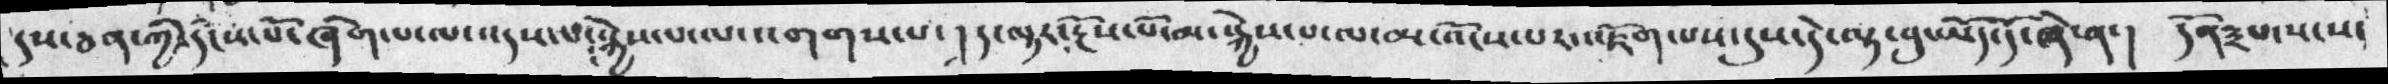དུས་ཅན་ཀྱི་དངོས་པོ་ཞིག་པ་ལས་འདས་པ་སྐྱེས་པ་ལ་འགགས་པ་། ད་ལྟར་རྔོས་པོ་མ་སྐྱེས་པ་ལ་མ་འོངས་པར་འཇོག་པས་དུས་དེ་ལྟ་བུ་ཡོད་དོ་ཞེ་ན་། དོན༣པ་སངས་
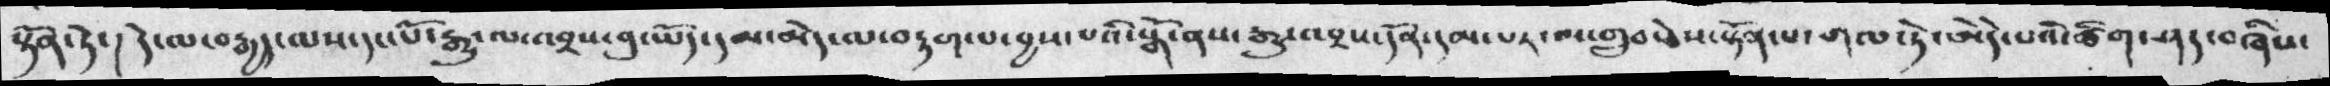སྟོན་ཏེ་། དེ་ལ་བརྒྱད་ལས་དང་པོ་རྒྱུ་ལ་འབྲས་བུ་ཡོད་མད་མེད་ལ་བརྟག་པ་བྱས་པའི་སྒོ་ནས་རྒྱུ་འབྲས་དོན་དམ་པར་མ་གྲུབ་ཅེས་སྟོན་པ་གལ་ཏེ་ཨེདེ་པའི་ཚིག་ཤད་བཞིས་
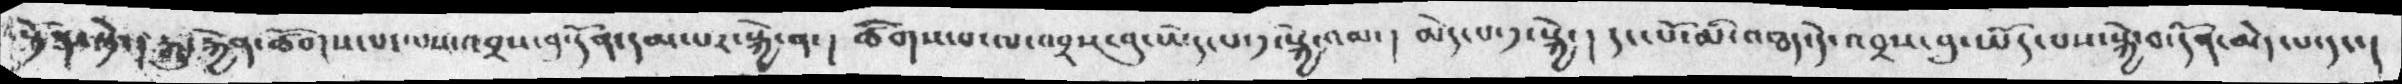སྟོན་སྟེ་།  རྒྱུ་རྐྱེན་ཚོགས་པ་ལས་འབྲས་བུ་དོན་དམ་པར་སྐྱེ་ན་།  ཚོགས་པ་ལ་འབྲས་བུ་ཡོད་པ་༡་སྐྱེ་འམ་།  མེད་པ་༡་སྐྱེ་།  དང་པོ་མི་འཐད་དེ་འབྲས་བུ་ཡོད་པས་སྐྱེ་བ་དོན་མེད་པ་དང་།
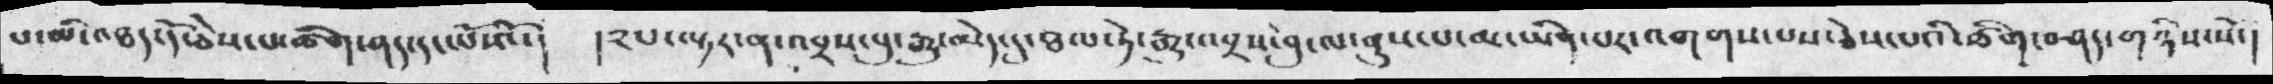པ་མི་འཐད་དོ་ཅེས་པ་ཚིག་ཤད་དང་པོ་འོ་།  །༢པ་ལྟར་ན་འབྲས་བུ་རྒྱུ་མེད་དུ་ཐལ་ཏེ་རྒཡུ་འབྲས་བུ་ལ་ནུས་པ་མ་ཡིན་པར་འགགས་པས་ཅེས་པའི་ཚིག་ཤད་གཉིས་སོ་།
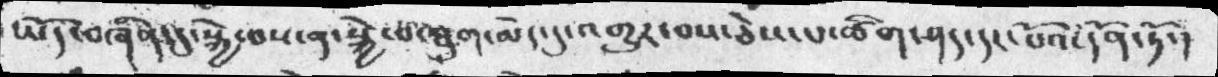ཡོད་བཞིན་དུ་སྐྱེ་བས་ན་སྐྱེ་བ་ཐུག་མེད་དུ་འགྱུར་བས་ཅེས་པ་ཚིག་ཤད་དང་པོའི་དོན་ཏོ་།
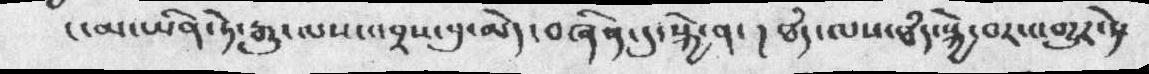ང་མ་ཡིན་ཏེ་རྒྱུ་ལས་འབྲས་བུ་མེད་བཞིན་དུ་སྐྱེ་ན་། ཐཾད་ལས་ཐཾད་སྐྱེ་བར་འགྱུར་ཏེ་
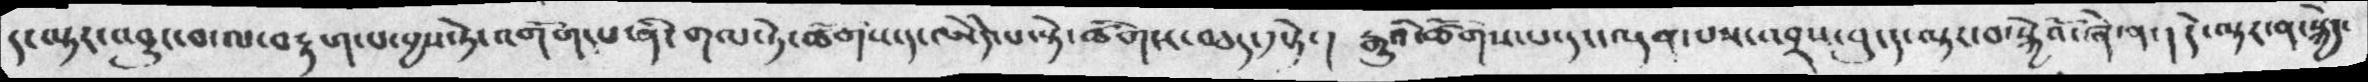ད་ལྟར་འབྱུང་བ་ལ་བརྟག་པ་བྱས་ཏེ་འགོག་པ་ནི་གལ་ཏེ་ཚོགས་དང་ཨེདེ་པ་སྟེ་ཚོགས་བཅད་༡སྟེ་། རྒྱུའི་ཚོགས་པ་དང་ལྡན་པས་འབྲས་བུ་ད་ལྟར་བ་སྐྱེའོ་ཞེ་ན་། དེ་ལྟར་ན་སྐྱེད་
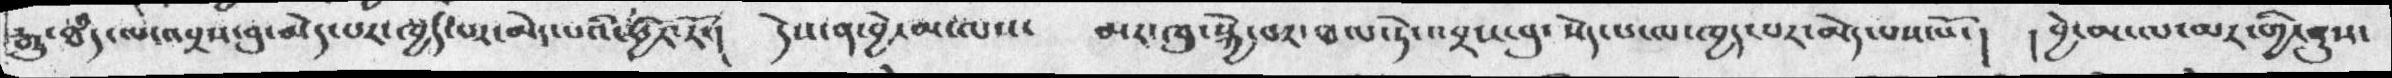རྒྱུ་ཐཾད་ལ་འབྲས་བུ་མེད་པར་ཁྱད་པར་མེད་པའི་ཕྱིར་རོ་། དེས་ན་བྱེ་མ་ལས་  མར་ཁུ་སྐྱེ་བར་ཐལ་ཏེ་འབྲས་བུ་སེད་པ་ལ་ཁྱད་པར་མེད་པས་སོ་། །བྱེ་མ་ལ་མར་གྱི་ནུས་
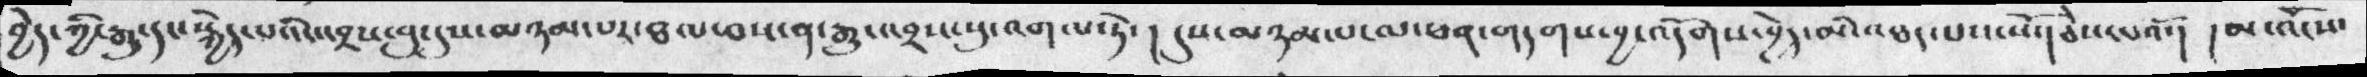བྱེད་ཀྱི་རྒྱུ་དང་སྐྱེད་པའི་འབྲས་བུ་དུས་མཉམ་པར་ཐལ་བས་ན་རྒྱུ་འབྲས་སུ་འགལ་ཏེ་། དུས་མཉམ་པ་ལ་ཕན་གདགས་བྱ་འདོགས་བྱེད་མི་འཐད་པས་སོ་། ཅེས་པའོ་། །མ་འོངས་
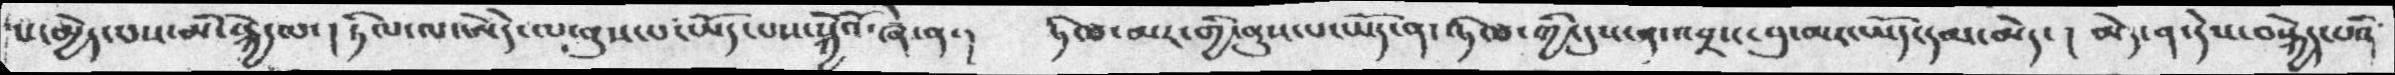པ་མྱེད་པས་མི་སྐྱེ་ལ་། ཏིལ་ལ་ཨེདེ་ལ་ནུས་པ་ཡོད་པས་སྐྱོའོ་ཞེ་ན་།   ཏིལ་མར་གྱི་ནུས་པ་ཡོད་ན་ཏིལ་ཀྱི་དུས་ན་འབྲས་བུ་མར་ཡོད་དམ་མེད་། མེད་ན་དེས་བསྐྱེད་པའི
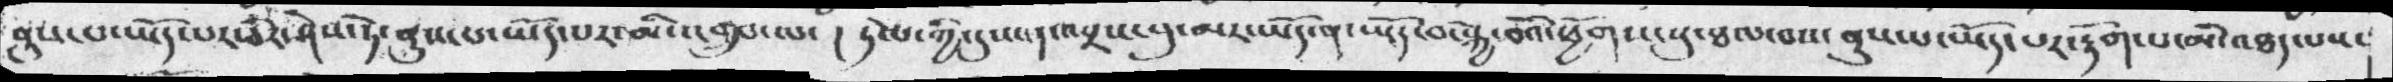ནུས་པ་ཡོད་པར་ཅིར་ཤེས་ཏེ་ནུས་པ་ཡོད་པར་མི་འགྲུབ་ལ་ ། ཏིལ་ཀྱི་དུས་ན་འབྲས་བུ་མར་ཡོད་ན་ཡོད་བ་སྐྱེ་བོའི་ཕྱོགས་སུ་ཐལ་བས་ནུས་པ་ཡོད་པར་རྟོག་པ་མི་འཐད་པས་
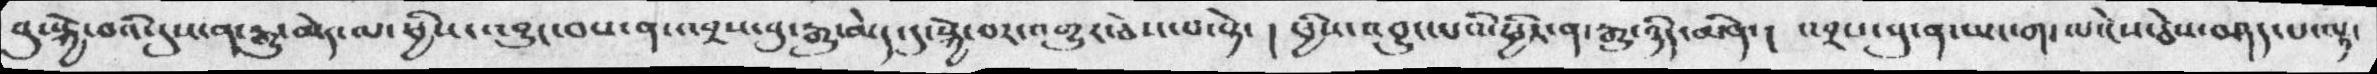བུ་སྐྱེ་བའི་དུས་ན་རྒྱུ་མེད་ལ་ཕྱིས་འབྱུང་བས་ན་འབྲས་བུ་རྒྱུ་མེད་དུ་སྐྱེ་བར་འགྱུར་ཅེས་པ་སྟེ་། ཕྱིས་འབྱུང་པི་ཕྱིར་ན་རྒྱུ་ཉིད་མིན་། འབྲས་བུ་ན་ཡང་ག་ལ་ངེས་ཅེས་བཤད་པ་ལྟ་
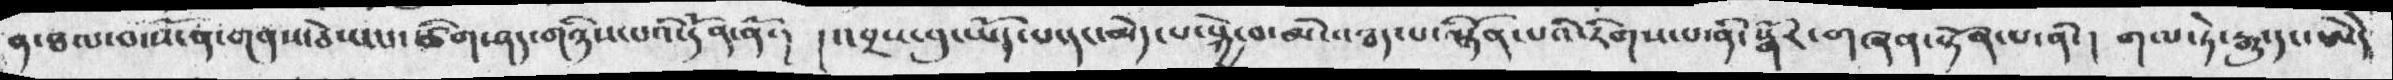ན་ཐལ་བ་ས་ན་གནས་ཅེས་པ་ཚིག་ཤད་གཉིས་པའི་དོན་ནོ་། །འབྲས་བུ་ཡོད་པ་དང་མེད་པ་སྐྱེ་བ་མི་འཐད་པ་སྟོན་པའི་རིགས་པ་ནི་སྒོར་གཞན་སྟོན་པ་ནི་། གལ་ཏེ་རྒྱུ་དང་ཨེདེ་
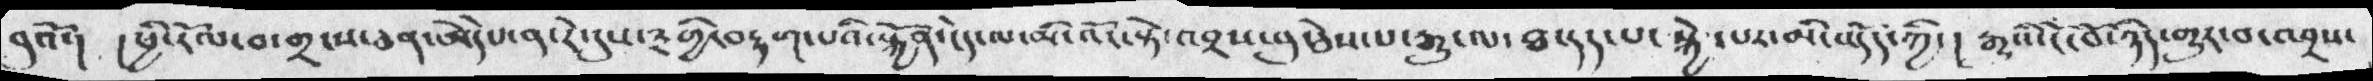བུའོ་། །ཕྱི་རོལ་བ་གྲངས་ཅན་ཨེདེཔ་ན་རེ་དུས་༣གྱི་བརྟག་པའི་སྐྱོན་ངེད་ལ་མི་འོང་སྟེ་འབྲས་བུ་ཅེས་པ་རྒྱུ་ལ་ཐ་དད་པ་སྐྱེ་པར་མི་འདོད་ཀྱི་། རྒཡུའི་ངོ་བོ་ཉིད་གྱུར་བ་འབྲས་
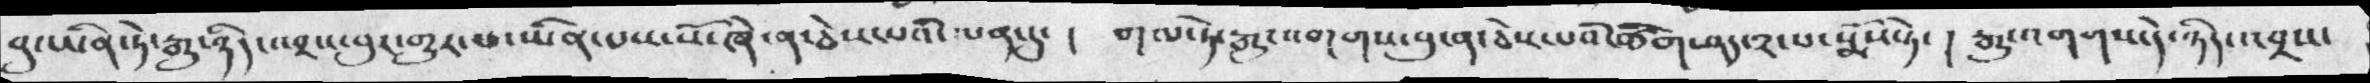བུ་ཡིན་ཏེ་རྒྱུ་ཉིད་འབྲས་བུར་གྱུར་པ་ཡིན་པས་སོ་ཞེ་ན་ཅེས་པའི་ལན་དུ་།  གལ་ཏེ་རྒྱུ་འགགས་པུ་ན་ཅེས་པི་ཚིག་ཤད་༢་པ་སྨོས་ཏེ་། རྒྱུ་འགགས་དེ་ཉིད་འབྲས་
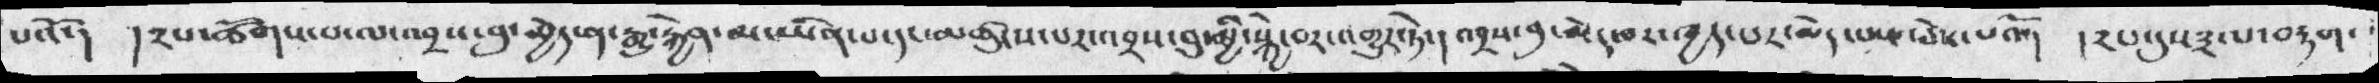པའོ་། །༢པ་ཚོགས་པ་ལ་འབྲས་བུ་ཕྱེད་ན་རྒྱུ་རྐྱེན་མ་ཡིན་པ་དང་མཚུངས་པར་འབྲས་བུ་མྱི་སྐྱེ་བར་འགྱུར་ཏེ་། འབྲས་བུ་མེད་པར་ཁྱད་པར་མེད་པས་ཅེས་པའོ་། །༢པ་དུས་༣ལ་བརྟག་
